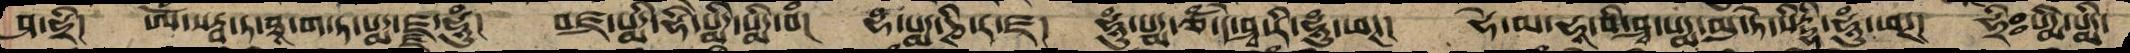ཤ་ཧྲི།  ཨོཾ་སརྦ་ཏ་ཐཱ་ག་ཏ་པདྨ་ཛྙ་ཧཱུཾ།  བཛྲ་པདྨི་ཧི་པདྨི་པདྨི་བཾ།  བྷ་པདྨ་ཎི་ར་ཛ།  ཧཱུཾ་པདྨ་ཙཾ་དེ་ཤྭ་རི་ཧཱུཾ་ཕཊ།   ཧེ་མ་ཧཱ་བི་ཤྭ་པདྨ་མུ་ཏེ་སིདྡྷི་ཧཱུཾ་ཕཊ།  ཧྲི་ཿ་པདྨི་པདྨི་
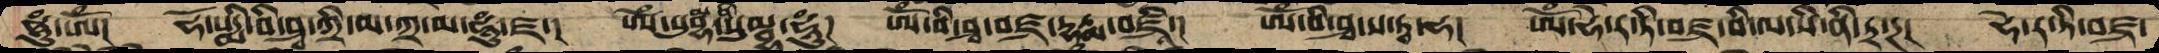ཧཱུཾ་ཨོཾ།  ཧོ་པདྨི་བི་ཤྭ་ཀྲི་མ་ཀྲ་མ་ཧཱུཾ་ཛ་།  ཨོཾ་སུ་བྷཾ་ནི་སུམྦྷ་ཧཱུཾ།  ཨོཾ་བི་ཤྭ་བཛྲ་དྷརྨ་བཛྲི་།  ཨོཾ་བི་ཤྭ་ས་ཏྭ་ཧ།  ཨོཾ་ཧེ་ར་ཏི་བཛྲ་བི་ལ་སི་ནི་ཏྲ་ཌ།  ཧེ་ར་ཏི་བཛྲ་
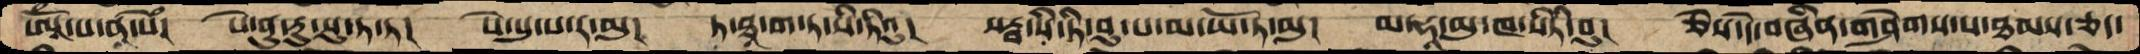ཨཱོཾ་པ་ནཱ་སེཾ།  སེ་ནུ་རུ་སུ་ཏ་ཏ། སེ་པུ་པ་ར་མུ།  ཏ་ཐཱ་ག་ཏ་སི་ཏིའུ།  སརྦ་སི་ཏི་བུ་པ་མ་ཡོ་ཏ་མུ། མ་ཧཱ་མུ་ཁ་སིཏི་བུ།  ཅེས་དེ་བཞིན་གཤེགས་པ་ཐམས་ཅད་
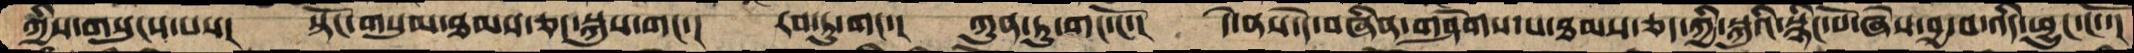ཀྱིས་གསུངས་པས་།  སྟོང་གསུམ་ཐམས་ཅད་སྐུས་གང་།  རབ་ཏུ་གང་།  ཀུན་ཏུ་གང་ངོ་།  དེ་བཞིན་གཤེགས་པ་ཐམས་ཅད་ཀྱི་སྐུའི་སྙིང་པོ་ཞེས་བྱ་བ་འདི་ཕྱུང་ངོ་་།
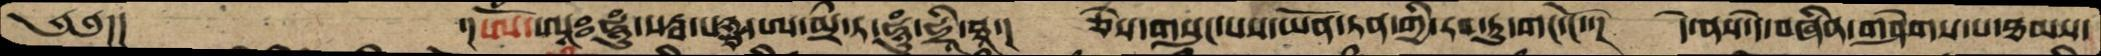༄༅་།            ་།ཨོཾ་ཨཱཿཧཱུཾ་སརྦ་པཉྩ་ཨ་མྲྀ་ཏ་ཧཱུཾ་ཧྲཱི་ཐཱ་།  ཅེས་གསུངས་པས་ཡོན་ཏན་གྱི་རབ་ཏུ་གང་ངོ་་།  དེ་ནས་དེ་བཞིན་གཤེགས་པ་ཐམས་
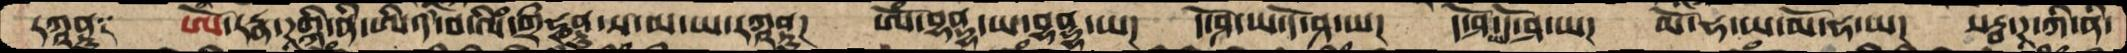རཀཱནྟུ༑  ཨོཾ་རཏྣ་ཌཀྐི་ནི་ཨི་དཾ་བ་ལིཾ་གྲྀ་ཧྞནྟུ་ས་མ་ཡ་རཀྵནྟུ།  ཨོཾ་བྷནྡྷ་ཡ་བྷནྡྷ་ཡ།  དོ་ཤ་ཡ་དོ་ཤ་ཡ།  དོ་ཤ་ཡ་དོ་ཤ་ཡ།  མོ་ཧ་ཡ་མོ་ཧ་ཡ།  སརྦ་ཌ་ཀི་ནི་
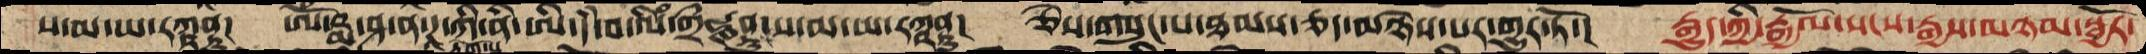ས་མ་ཡ་རཀྵནྟུ།  ཨོཾ་ཥྨ་ཤ་ན་ཌ་ཀི་ནི་ཨི་དཾ་བ་ལིཾ་གྲྀཧྞནྟུ་ས་མ་ཡ་རཀྵནྟུ།  ཅེས་གསུངས་པ་ཐམས་ཅད་མཉེས་པར་གྱུར་ཏོ་།  རྒྱུད་ཀྱི་རྒྱལོ་སངས་རྒྱས་མཉམ་སྦྱོར་
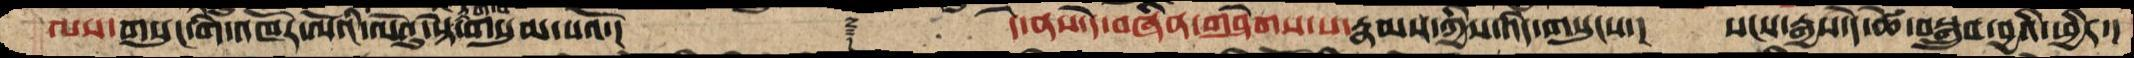ལས་གསུང་གི་འཁོར་ལོའི་ལེའུ་སྟེ་གསུམ་པའོ་།  ༈  དེ་ནས་དེ་བཞིན་གཤེགས་པ་རྣམས་ཀྱིས་འདི་གསུངས་།  སངས་རྒྱས་དེ་ཚེ་བསྒྲུབ་བྱའི་ཕྱིར་།
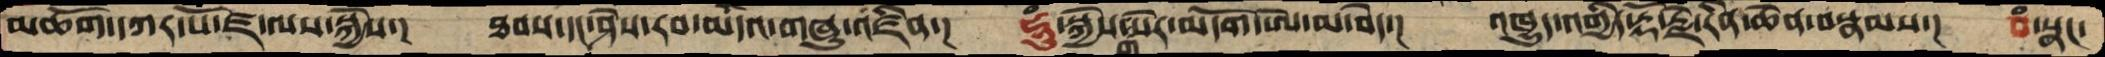མཆོག་དཀར་པོ་ཛ་ལས་སྐྱེས་།  ཐབས་དང་ཤེས་རབ་མདའ་གཞུ་འཛིན་།  ཧཱུཾ་སྐྱེས་གསེར་མདོག་ཨེ་མ་བདེ་།  འཁྱུད་འགྱིད་རྡོ་རྗེ་རིན་ཆེན་བསྣམས་།  བཾ་སྣང་
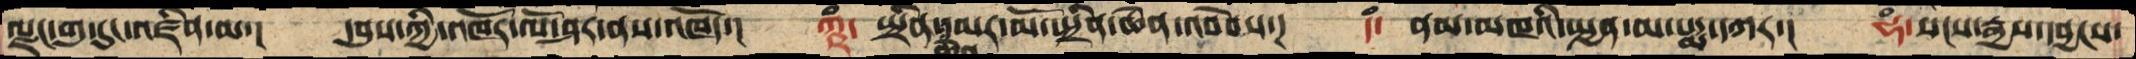ལྗང་གུ་དུང་འཛིན་མ་།  དབུས་ཀྱི་འཁོར་ལོ་ཤར་ནས་འཁོད་།  ཀྵཾ་  སྤྲིན་ཆེན་དམར་མོ་སྤྲིན་ཆེན་འབེབས་།  དཾ་  ནམ་མཁའི་སྤྱན་མ་པདྨ་དཀར་།  ཧཾ་སངས་རྒྱས་དབྱངས་
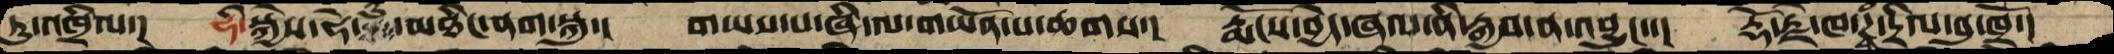ཏུ་འཁྲིལ་།  ཧི་སྐྱེས་ཧོ་རུ་མཐིང་ནག་སྐུ་།  གཡས་པ་ཞི་ལ་གཡོན་པ་ཆགས་།  རྨོངས་བྱེད་ཞལ་ནི་རྒྱབ་ན་འབྱུང་་།  རྡོ་རྗེ་ཁ་ཌྭཾ་དྲིལ་བུ་ཁྲོ་།
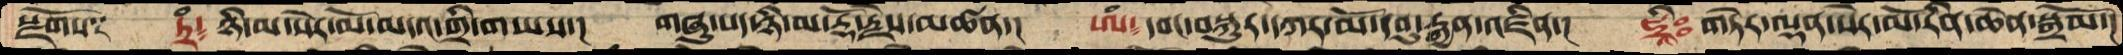སྫོགས༑  ཏྲཾ༴ ཉི་མ་སེར་མོ་མདའ་གྲི་གཡས་།  གཞུ་པད་ཉི་མ་རྡོ་རྗེས་མཚན་།  ཨཾ༴ དབང་བསྐུར་དཀར་མོ་དབུ་རྒྱན་འཛིན་།  ཧྲཱིཿ གཏེར་ལྡན་སེར་མོ་རིན་ཆེན་སྒྲོམ་།
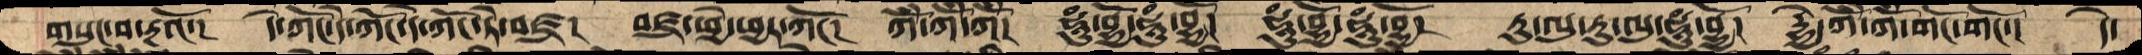གསུང་བ་རྔའོ།།  དེ་ཀོང་དེ་ཀོང་དེ་ཀོང་ཏེ་བཛྲ།  བཛྲ་ཕྱེ་ཕྱར་ཀོང།  ཀོཾ་ཀོཾ་ཀོཾ།  ཧཱུཾ་བྷྱོ་ཧཱུཾ་བྷྱོ།  ཧཱུཾ་བྷྱོ་ཧཱུཾ་བྷྱོ།  རུ་ལུ་རུ་ལུ་ཧཱུཾ་བྷྱོ།  དྷྱེ་གོཾ་གོཾ་གོང་གོང་།  དེ་
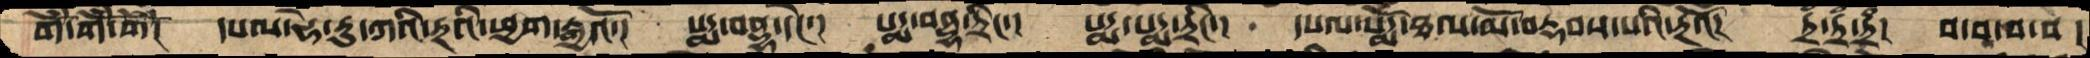གོཾ་གོཾ་གོཾ། དཔལ་ཧེ་རུ་ཀའི་རྔའི་ཕྱག་རྒྱའོ་། པདྨ་བནྡྷ་དེང་། པདྨ་བནྡྷ་ཏྲིང་། པདྨ་པདྨ་ཏྲིང་། དཔལ་པདྨོ་ཐལ་མོ་བརྡབས་པའི་རྔའོ་། ཏྲཾ་ཏྲཾ་ཏྲཾ། བ་བཱ་བ་བ།
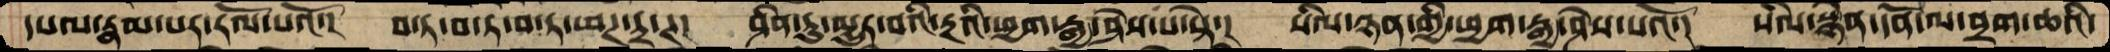དཔལ་རྣམ་པར་རོལ་པའོ་། བ་ཏ་བ་ཏ་བ་ཏ་ཕཊ་ཏྲ་ཊ། ཤིན་ཏུ་མྱུར་བའི་རྔའི་ཕྱག་རྒྱ་ཤེས་པ་སྟེ་། སིལ་སྙན་གྱི་ཕྱག་རྒྱ་ཤེས་པའོ་། སིལ་སྙན་དོན་ལ་བྲག་ཆའི་
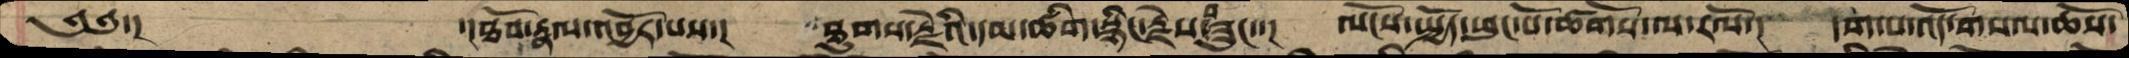༄༅་།   ་།ཐོབ་རྣལ་འབྱོར་པས་། ཐུགས་རྗེའི་དམ་ཚིག་སྙིང་རྗེས་བཟུང་་། ལོངས་སྤྱོད་ཕུང་པོ་ཚོགས་ལ་རོལ་། དག་པ་འོད་གསལ་ཆོས་
